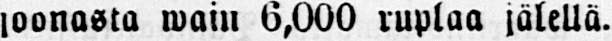loonasta wain 6,000 ruplaa jälellä.
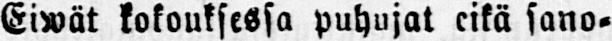Eiwät kokouksessa puhujat eikä sano-
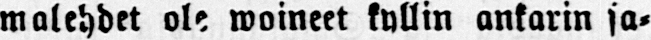malehdet ole woineet kyllin ankarin sa-
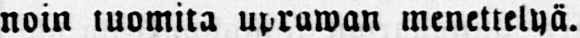noin tuomita uprawan menettelyä.
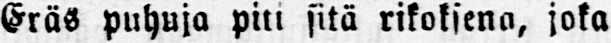Eräs puhuja piti sitä rikoksena, joka
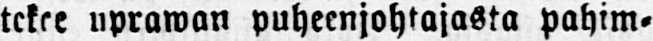tekee uprawan puheenjohtajasta pahim-
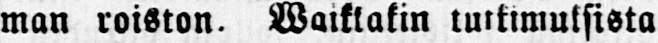man roiston. Waikkakin tutkimuksista
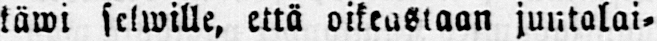käwi selwille, että oikeastaan juutalai-
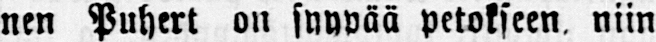nen Puhert on syypää petokseen niin
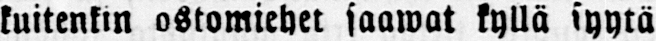kuitenkin ostomiehet saawat kyllä syytä
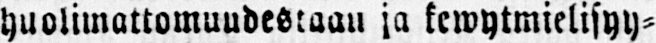huolimattomuudestaau ja kewytmielisyy-
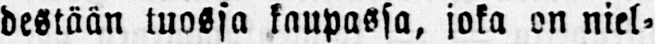destään tuossa kaupassa, joka on niel-
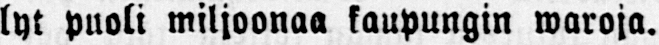lyt puoli miljoonaa kaupungin waroja.
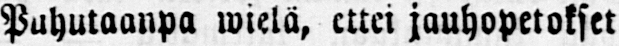Puhutaanpa wielä, ettei jauhopetokset
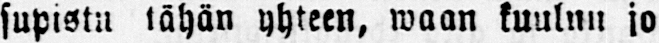supistu tähän yhteen, waan kuulun jo
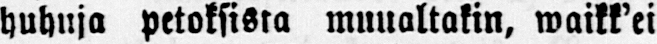huhuja petoksista muualtakin, waikk'ei
